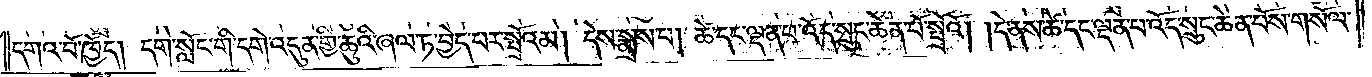དགའ་བོ་ཁྱོད། དགེ་སློང་གི་དགེ་འདུན་གྱི་ཆུའི་ཞལ་ཏ་བྱེད་པར་སྤྲོའམ། དེས་སྨྲས་པ། ཚེ་དང་ལྡན་པ་འོད་སྲུང་ཆེན་པོ་སྤྲོའོ། །དེ་ནས་ཚེ་དང་ལྡན་པ་འོད་སྲུང་ཆེན་པོས་གསོལ་
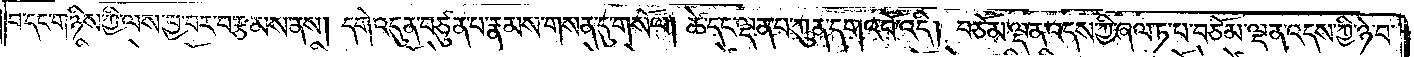བ་དང་གཉིས་ཀྱི་ལས་བྱ་བར་བརྩམས་ནས། དགེ་འདུན་བཙུན་པ་རྣམས་གསན་དུ་གསོལ། ཚེ་དང་ལྡན་པ་ཀུན་དགའ་བོ་འདི། བཅོམ་ལྡན་འདས་ཀྱི་ཞལ་ཏ་པ་བཅོམ་ལྡན་འདས་ཀྱི་ཉེ་བ་
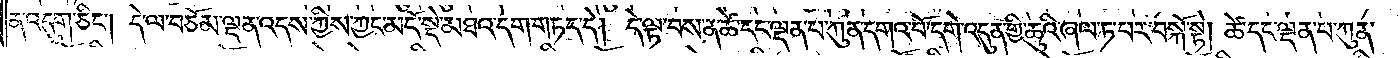ན་འདུག་ཅིང༌། དེ་ལ་བཅོམ་ལྡན་འདས་ཀྱིས་ཀྱང་མདོ་སྡེ་མཐའ་དག་གཏད་དེ། དེ་ལྟ་བས་ན་ཚེ་དང་ལྡན་པ་ཀུན་དགའ་བོ་དགེ་འདུན་གྱི་ཆུའི་ཞལ་ཏ་པར་བསྐོ་ཏེ། ཚེ་དང་ལྡན་པ་ཀུན་
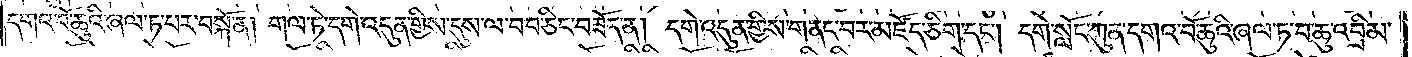དགའ་བོ་ཆུའི་ཞལ་ཏ་པར་བསྐོ་ན། གལ་ཏེ་དགེ་འདུན་གྱིས་དུས་ལ་བབ་ཅིང་བཟོད་ན། དགེ་འདུན་གྱིས་གནང་བར་མཛོད་ཅིག་དང༌། དགེ་སློང་ཀུན་དགའ་བོ་ཆུའི་ཞལ་ཏ་བ་ཆུ་འབྲིམ་
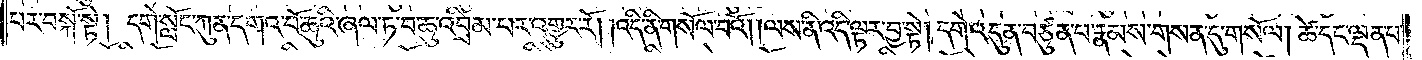པར་བསྐོ་སྟེ། དགེ་སློང་ཀུན་དགའ་བོ་ཆུའི་ཞལ་ཏ་བ་ཆུ་འབྲིམ་པར་འགྱུར་རོ། །འདི་ནི་གསོལ་བའོ། །ལས་ནི་འདི་ལྟར་བྱ་སྟེ། དགེ་འདུན་བཙུན་པ་རྣམས་གསན་དུ་གསོལ། ཚེ་དང་ལྡན་པ་
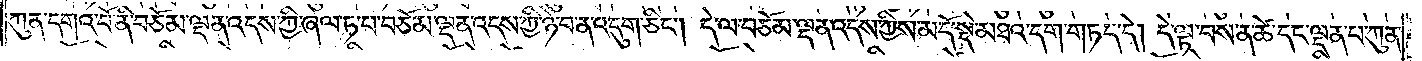ཀུན་དགའ་བོ་ནི་བཅོམ་ལྡན་འདས་ཀྱི་ཞལ་ཏ་པ་བཅོམ་ལྡན་འདས་ཀྱི་ཉེ་བ་ན་འདུག་ཅིང༌། དེ་ལ་བཅོམ་ལྡན་འདས་ཀྱིས་མདོ་སྡེ་མཐའ་དག་གཏད་དེ། དེ་ལྟ་བས་ན་ཚེ་དང་ལྡན་པ་ཀུན་
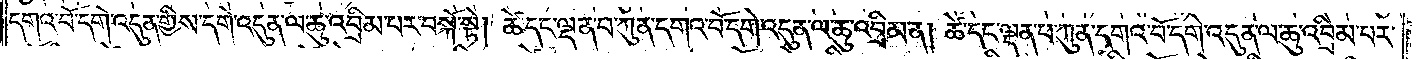དགའ་བོ་དགེ་འདུན་གྱིས་དགེ་འདུན་ལ་ཆུ་འབྲིམ་པར་བསྐོ་སྟེ། ཚེ་དང་ལྡན་པ་ཀུན་དགའ་བོ་དགེ་འདུན་ལ་ཆུ་འབྲིམ་ན། ཚེ་དང་ལྡན་པ་ཀུན་དགའ་བོ་དགེ་འདུན་ལ་ཆུ་འབྲིམ་པར་
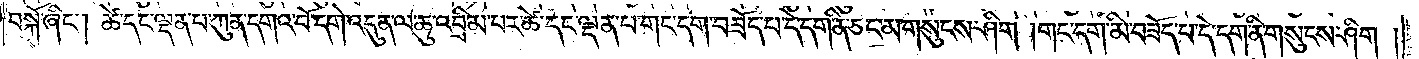བསྐོ་ཞིང༌། ཚེ་དང་ལྡན་པ་ཀུན་དགའ་བོ་དགེ་འདུན་ལ་ཆུ་འབྲིམ་པར་ཚེ་དང་ལྡན་པ་གང་དག་བཟོད་པ་དེ་དག་ནི་ཅང་མ་གསུངས་ཤིག །གང་དག་མི་བཟོད་པ་དེ་དག་ནི་གསུངས་ཤིག །
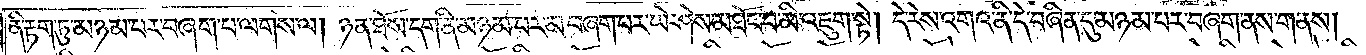ནི་རྟག་ཏུ་མཉམ་པར་བཞག་པ་ལགས་ལ། ཉན་ཐོས་དག་ནི་མཉམ་པར་མ་བཞག་པར་ཡེ་ཤེས་མཐོང་བ་མི་འཇུག་སྟེ། དེ་རེས་འགའ་ནི་དེ་བཞིན་དུ་མཉམ་པར་བཞག་ནས་གནས།
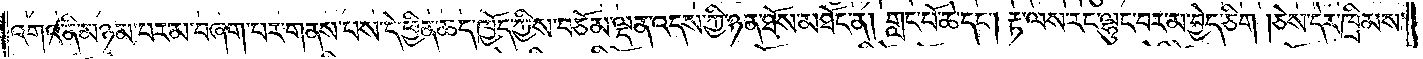འགའ་ནི་མཉམ་པར་མ་བཞག་པར་གནས་པས་དེ་ཕྱིན་ཆད་ཁྱོད་ཀྱིས་བཅོམ་ལྡན་འདས་ཀྱི་ཉན་ཐོས་མཐོང་ན། གླང་པོ་ཆེ་དང༌། རྟ་ལས་རང་ལྷུང་བར་མ་བྱེད་ཅིག །ཅེས་དེར་ཁྲིམས་
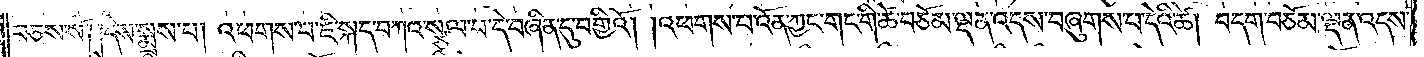བཅས་སོ། །དེས་སྨྲས་པ། འཕགས་པ་ཇི་སྐད་བཀའ་སྩལ་པ་དེ་བཞིན་དུ་བགྱིའོ། །འཕགས་པ་འོན་ཀྱང་གང་གི་ཚེ་བཅོམ་ལྡན་འདས་བཞུགས་པ་དེའི་ཚེ། བདག་བཅོམ་ལྡན་འདས་
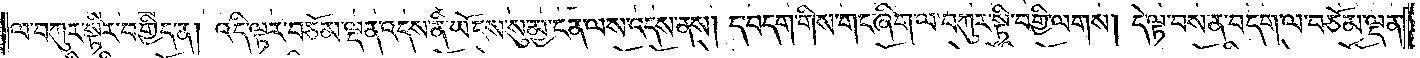ལ་བཀུར་སྟིར་བགྱིད་ན། འདི་ལྟར་བཅོམ་ལྡན་འདས་ནི་ཡོངས་སུ་མྱ་ངན་ལས་འདས་ནས། ད་བདག་གིས་གང་ཞིག་ལ་བཀུར་སྟི་བགྱི་ལགས། དེ་ལྟ་བས་ན་བདག་ལ་བཅོམ་ལྡན་
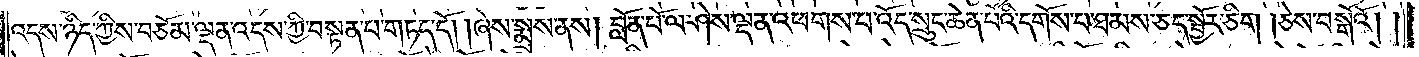འདས་ཉིད་ཀྱིས་བཅོམ་ལྡན་འདས་ཀྱི་བསྟན་པ་གཏད་དོ། །ཞེས་སྨྲས་ནས། བློན་པོ་ལ་ཤེས་ལྡན་འཕགས་པ་འོད་སྲུང་ཆེན་པོའི་དགོས་པ་ཐམས་ཅད་སྦྱོར་ཅིག །ཅེས་བསྒོའོ། །
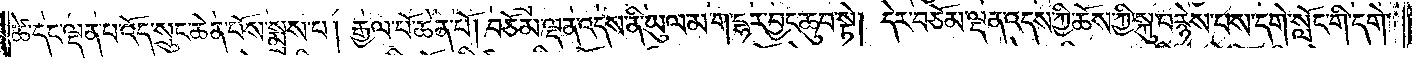ཚེ་དང་ལྡན་པ་འོད་སྲུང་ཆེན་པོས་སྨྲས་པ། རྒྱལ་པོ་ཆེན་པོ། བཅོམ་ལྡན་འདས་ནི་ཡུལ་མ་ག་དྷར་བྱང་ཆུབ་སྟེ། དེར་བཅོམ་ལྡན་འདས་ཀྱི་ཆོས་ཀྱི་སྐུ་བརྙེས་པས་དགེ་སློང་གི་དགེ་
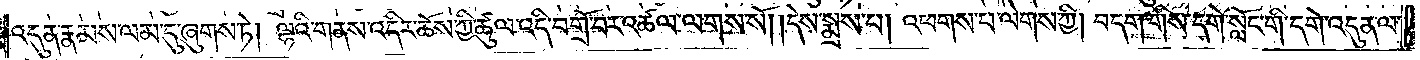འདུན་རྣམས་ལམ་དུ་ཞུགས་ཏེ། ལྷའི་གནས་འདིར་ཆོས་ཀྱི་ཚུལ་འདི་བགྲོ་བར་འཚལ་ལགས་སོ། །དེས་སྨྲས་པ། འཕགས་པ་ལེགས་ཀྱི། བདག་གིས་དགེ་སློང་གི་དགེ་འདུན་ལ་
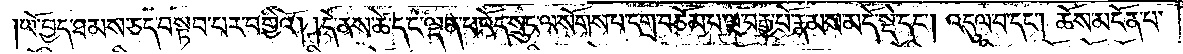།ཡོ་བྱད་ཐམས་ཅད་བསྟབ་པར་བགྱིའོ། །དེ་ནས་ཚེ་དང་ལྡན་པ་འོད་སྲུང་ལ་སོགས་པ་དགྲ་བཅོམ་པ་ལྔ་བརྒྱ་པོ་རྣམས་མདོ་སྡེ་དང༌། འདུལ་བ་དང༌། ཆོས་མངོན་པ་
